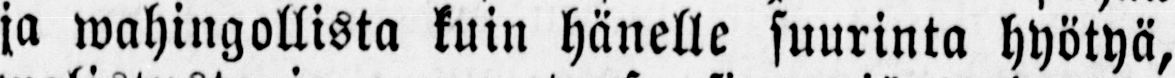ja wahingollista kuin hänelle suurinta hyötyä,
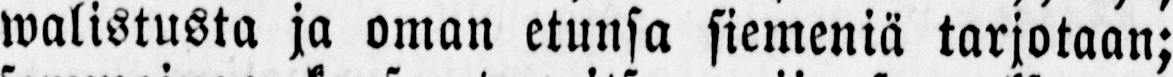walistusta ja oman etunsa siemeniä tarjotaan;
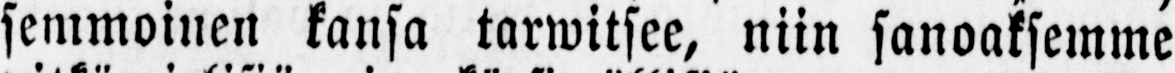semmoinen kansa tarwitsee, niin sanoaksemme
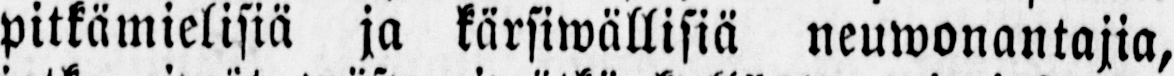pitkämielisiä ja kärsiwällisiä neuwonantajia,
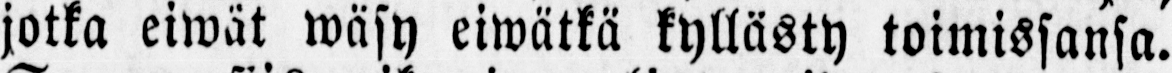jotka eiwät wäsy eiwätkä kyllästy toimissansa.
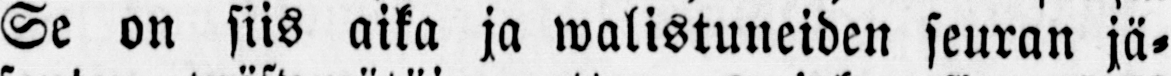Se on siis aika ja walistuneiden seuran jä-
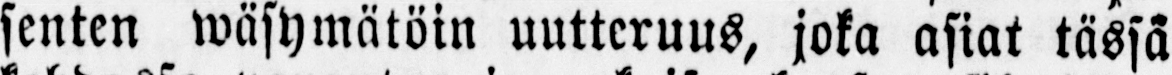senten wäsymätöin uutteruus, joka asiat tässä
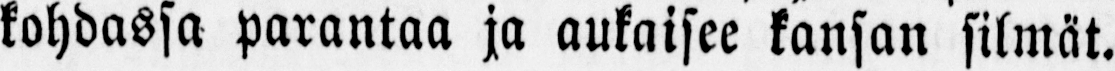kohdassa parantaa ja aukaisee kansan silmät.
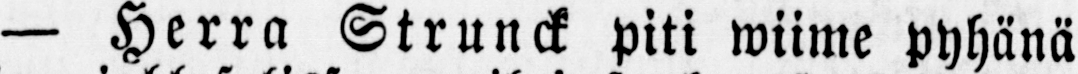— Herra Strunck piti wiime pyhänä
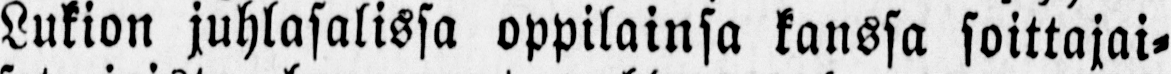Lukion juhlasalissa oppilainsa kanssa soittajai-
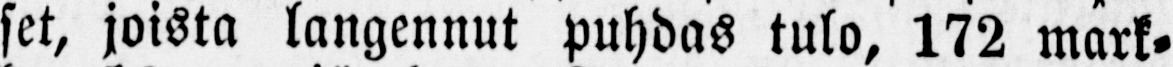set, joista langennut puhdas tulo, 172 mark-
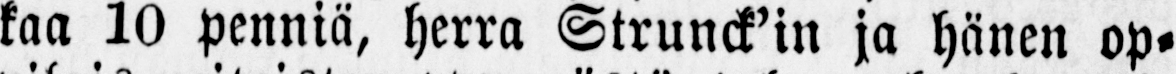kaa 10 penniä, herra Strunck’in ja hänen op-
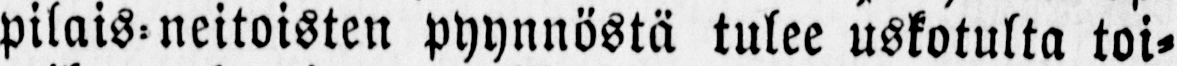pilais-neitoisten pyynnöstä tulee uskotulta toi-
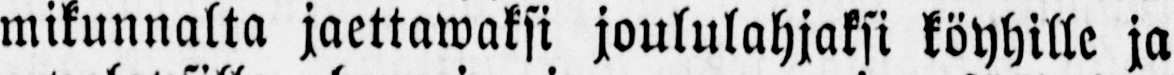mikunnalta jaettawaksi joululahjaksi köyhille ja
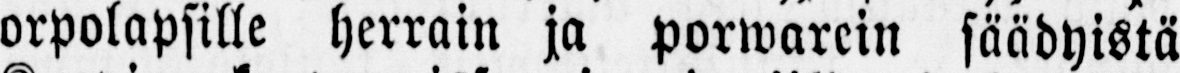orpolapsille herrain ja porwarein säädyistä
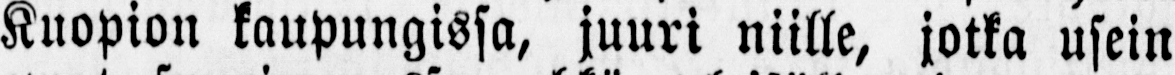Kuopion kaupungissa, juuri niille, jotka usein
